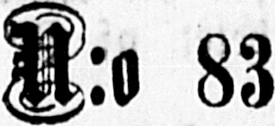N:o 83
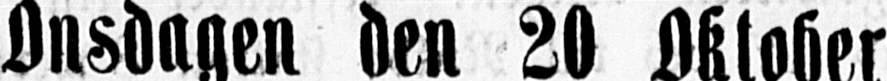Onsdagen den 20 Oktober
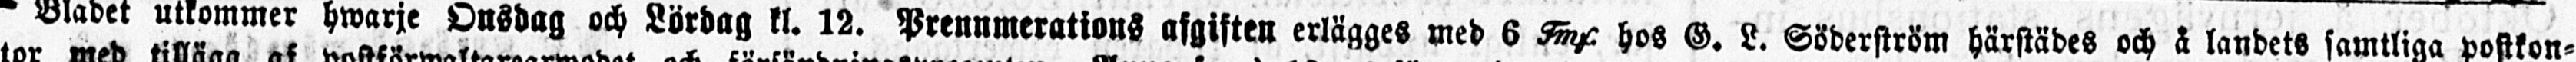Bladet utkommer hwarje Onsdag och Lördag kl. 12. Prenumerations afgiften erlägges med 6 Fmk hos G. L. Söderström härstädes och å landets samtliga postkon-
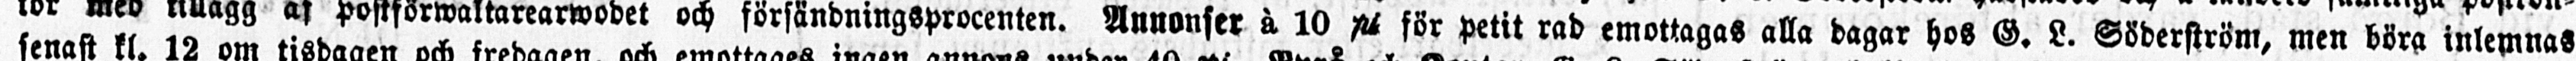tor med tillägg af postförwaltarearwodet och försändningsprocenten. Annonser à 10 pi för petit rad emottagas alla dagar hos G. L. Söderström, men böra inlemnas
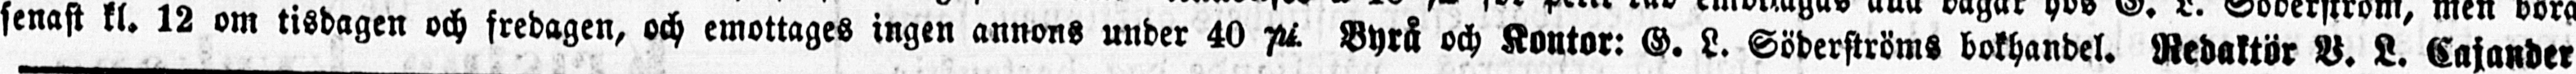senast kl. 12 om tisdagen och fredagen, och emottages ingen annons under 40 pi. Byrå och Kontor: G. L. Söderströms bokhandel. Redaktör V. L. Cajander
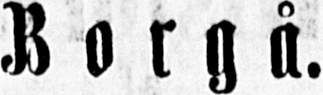B o r g å.
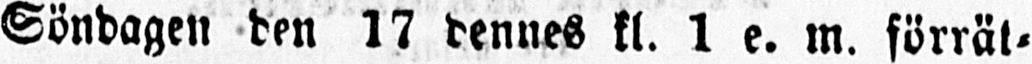Söndagen den 17 dennes kl. 1 e. m. förrät-
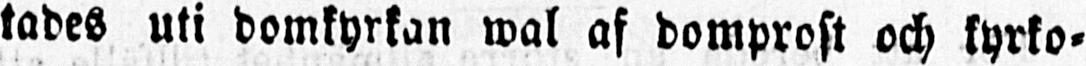tades uti domkyrkan wal af domprost och kyrko-
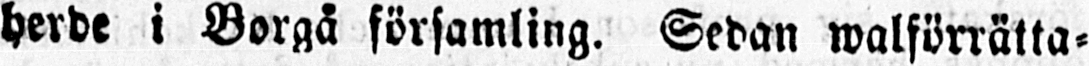herde i Borgå församling. Sedan walförrätta-
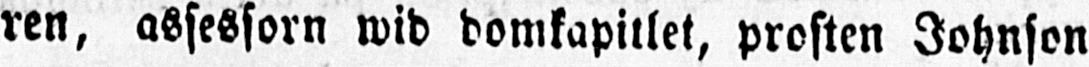ren, assessorn wid domkapitlet, prosten Johnson
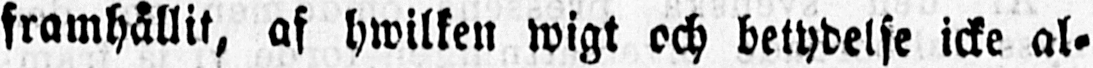framhållit, af hwilken wigt och betydelse icke al-
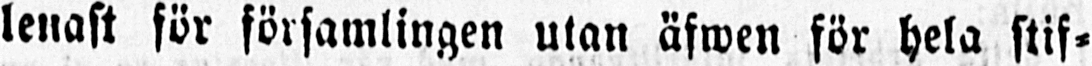lenast för församlingen utan äfwen för hela stif-
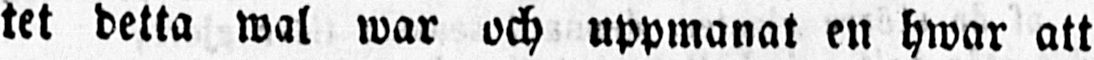tet detta wal war och uppmanat en hwar att
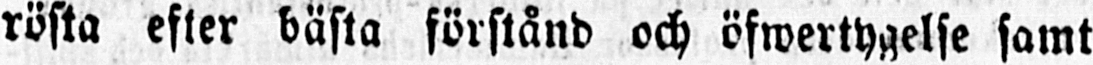rösta efter bästa förstånd och öfwertygelse samt
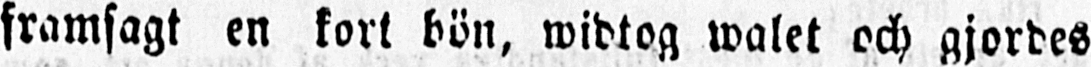framsagt en kort bön, widtog walet och gjordes
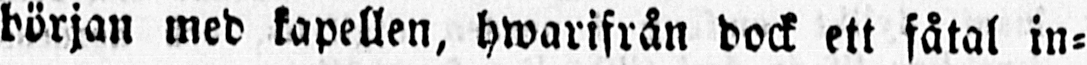början med kapellen, hwarifrån dock ett fåtal in-
